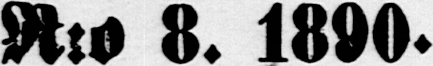N:o 8. 1890.
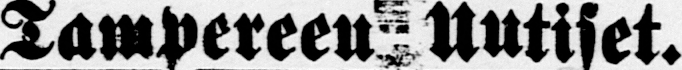Tampereen Uutiset.
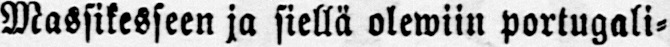Massikesseen ja siellä olewiin portugali-
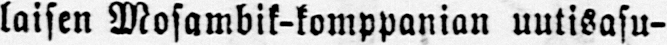laisen Mosambik-komppanian uutisasu-
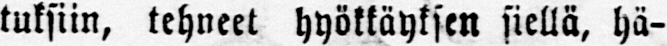tuksiin, tehneet hyökkäyksen siellä, hä-
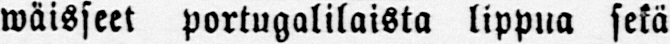wäisseet portugalilaista lippua sekä
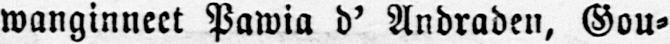wanginneet Pawia d' Andraden, Gou-
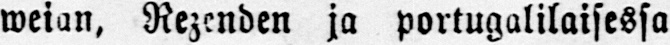weian, Rezenden ja portugalilaisessa
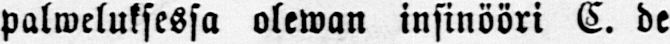palweluksessa olewan insinööri C. de
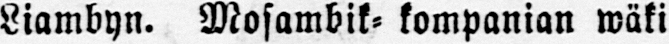Liambyn. Mosambik- kompanian wäki
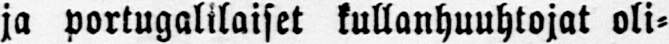ja portugalilaiset kullanhuuhtojat oli-
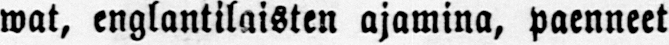wat, englantilaisten ajamina, paenneet
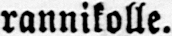rannikolle.
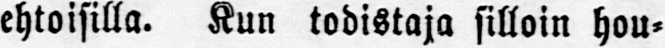ehtoisilla. Kun todistaja silloin hou-
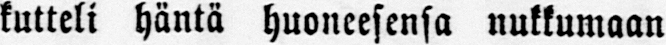kutteli häntä huoneesensa nukkumaan
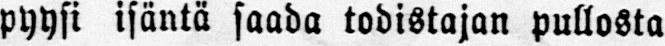pyysi isäntä saada todistajan pullosta
